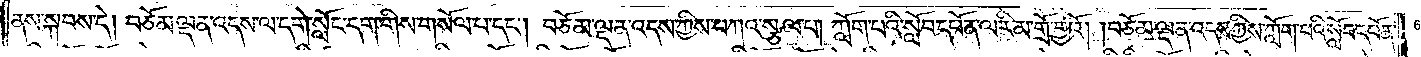ནས་སྐབས་དེ། བཅོམ་ལྡན་འདས་ལ་དགེ་སློང་དག་གིས་གསོལ་པ་དང༌། བཅོམ་ལྡན་འདས་ཀྱིས་བཀའ་སྩལ་པ། ཀློག་པའི་སློབ་དཔོན་ལ་རིམ་གྲོ་བྱའོ། །བཅོམ་ལྡན་འདས་ཀྱིས་ཀློག་པའི་སློབ་དཔོན་
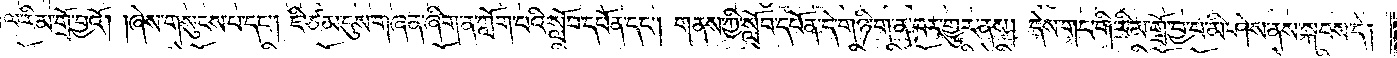ལ་རིམ་གྲོ་བྱའོ། །ཞེས་གསུངས་པ་དང༌། ཇི་ཙམ་དུས་གཞན་ཞིག་ན་ཀློག་པའི་སློབ་དཔོན་དང༌། གནས་ཀྱི་སློབ་དཔོན་དེ་གཉི་ག་ན་བར་གྱུར་ནས། དེས་གང་གི་རིམ་གྲོ་བྱ་བ་མི་ཤེས་ནས་སྐབས་དེ།
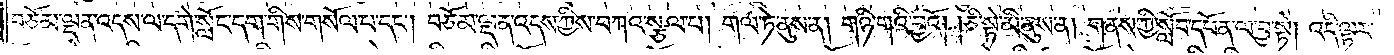བཅོམ་ལྡན་འདས་ལ་དགེ་སློང་དག་གིས་གསོལ་པ་དང༌། བཅོམ་ལྡན་འདས་ཀྱིས་བཀའ་སྩལ་པ། གལ་ཏེ་ནུས་ན། གཉི་གའི་བྱའོ། །ཅི་སྟེ་མི་ནུས་ན། གནས་ཀྱི་སློབ་དཔོན་ལ་བྱ་སྟེ། འདི་ལྟར་
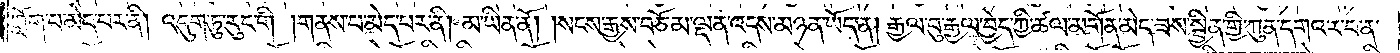ཀློག་པ་མེད་པར་ནི། འདུག་ཏུ་རུང་གི །གནས་པ་མེད་པར་ནི། མ་ཡིན་ནོ། །སངས་རྒྱས་བཅོམ་ལྡན་འདས་མཉན་ཡོད་ན། རྒྱལ་བུ་རྒྱལ་བྱེད་ཀྱི་ཚལ་མགོན་མེད་ཟས་སྦྱིན་གྱི་ཀུན་དགའ་ར་བ་ན་
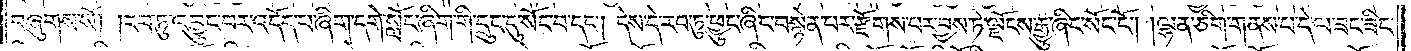བཞུགས་སོ། །རབ་ཏུ་འབྱུང་བར་འདོད་པ་ཞིག་དགེ་སློང་ཞིག་གི་དྲུང་དུ་སོང་བ་དང༌། དེས་དེ་རབ་ཏུ་ཕྱུང་ཞིང་བསྙེན་པར་རྫོགས་པར་བྱས་ཏེ་ལྗོངས་རྒྱུ་ཞིང་སོང་ངོ༌། །ལྷན་ཅིག་གནས་པ་དེ་ལ་ཟང་ཟིང་
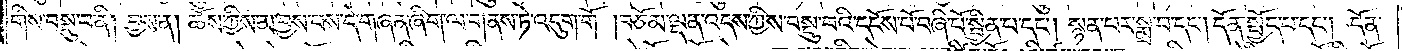གིས་བསྡུ་བ་ནི། བྱས་ན། ཆོས་ཀྱིས་མ་བྱས་པས་དེ་གཞན་ཞིག་ལ་གནས་ཏེ་འདུག་གོ །བཅོམ་ལྡན་འདས་ཀྱིས་བསྡུ་བའི་དངོས་པོ་བཞི་པོ་སྦྱིན་པ་དང༌། སྙན་པར་སྨྲ་བ་དང༌། དོན་སྤྱོད་པ་དང༌། དོན་
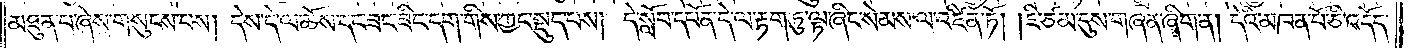མཐུན་པ་ཞེས་གསུངས་པས། དེས་དེ་ལ་ཆོས་དང་ཟང་ཟིང་དག་གིས་ཀྱང་སྡུད་པས། དེ་སློབ་དཔོན་དེ་ལ་རྟག་ཏུ་ལྟ་ཞིང་སེམས་ལ་འཛིན་ཏོ། །ཇི་ཙམ་དུས་གཞན་ཞིག་ན། དེའི་མཁན་པོ་ཅི་འདོད་
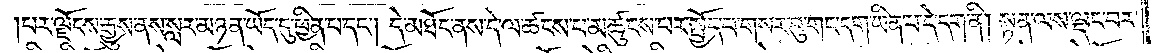པར་ལྗོངས་རྒྱུས་ནས་སླར་མཉན་ཡོད་དུ་ཕྱིན་པ་དང༌། དེ་མཐོང་ནས་དེ་ལ་ཚངས་པ་མཚུངས་པར་སྤྱོད་པ་གསར་བུ་གང་དག་ཡིན་པ་དེ་དག་ནི། སྟན་ལས་ལྡང་བར་
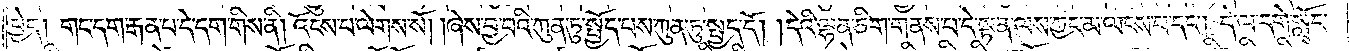བྱེད། གང་དག་རྒན་པ་དེ་དག་གིས་ནི། འོངས་པ་ལེགས་སོ། །ཞེས་བྱ་བའི་ཀུན་ཏུ་སྤྱོད་པས་ཀུན་ཏུ་སྤྱད་དོ། །དེའི་ལྷན་ཅིག་གནས་པ་དེ་སྟན་ལས་ཀྱང་མ་ལངས་པ་དང༌། དེ་ལ་དགེ་སློང་
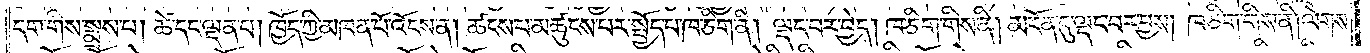དག་གིས་སྨྲས་པ། ཚེ་དང་ལྡན་པ། ཁྱོད་ཀྱི་མཁན་པོ་འོངས་ན། ཚངས་པ་མཚུངས་པར་སྤྱོད་པ་ཁ་ཅིག་ནི། ལྡང་བར་བྱེད། ཁ་ཅིག་གིས་ནི། མངོན་དུ་ལྡང་བར་བྱས། ཁ་ཅིག་གིས་ནི། ལེགས་
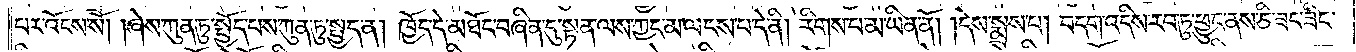པར་འོངས་སོ། །ཞེས་ཀུན་ཏུ་སྤྱོད་པས་ཀུན་ཏུ་སྤྱད་ན། ཁྱོད་དེ་མཐོང་བཞིན་དུ་སྟན་ལས་ཀྱང་མ་ལངས་པ་དེ་ནི། རིགས་པ་མ་ཡིན་ནོ། །དེས་སྨྲས་པ། བདག་འདིས་རབ་ཏུ་ཕྱུང་ནས་ཅི་ཟང་ཟིང་
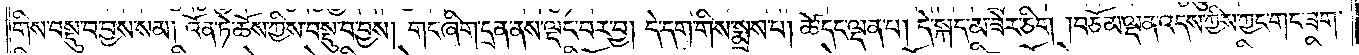གིས་བསྡུ་བ་བྱས་སམ། འོན་ཏེ་ཆོས་ཀྱིས་བསྡུ་བ་བྱས། གང་ཞིག་དྲན་ནས་ལྡང་བར་བྱ། དེ་དག་གིས་སྨྲས་པ། ཚེ་དང་ལྡན་པ། དེ་སྐད་མ་ཟེར་ཅིག །བཅོམ་ལྡན་འདས་ཀྱིས་ཀྱང་གང་ཟག་
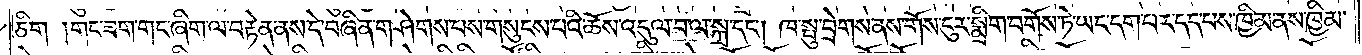ཅིག །གང་ཟག་གང་ཞིག་ལ་བརྟེན་ནས་དེ་བཞིན་གཤེགས་པས་གསུངས་པའི་ཆོས་འདུལ་བ་ལ་སྐྲ་དང༌། ཁ་སྤུ་བྲེགས་ནས་གོས་ངུར་སྨྲིག་བགོས་ཏེ་ཡང་དག་པར་དད་པས་ཁྱིམ་ནས་ཁྱིམ་
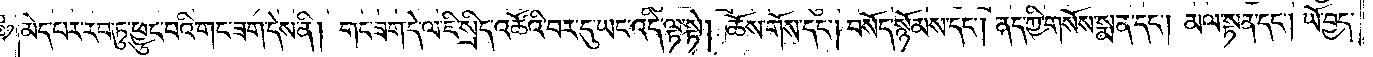མེད་པར་རབ་ཏུ་ཕྱུང་བའི་གང་ཟག་དེས་ནི། གང་ཟག་དེ་ལ་ཇི་སྲིད་འཚོའི་བར་དུ་ཡང་འདི་ལྟ་སྟེ། ཆོས་གོས་དང༌། བསོད་སྙོམས་དང༌། ནད་ཀྱི་གསོས་སྨན་དང༌། མལ་སྟན་དང༌། ཡོ་བྱད་
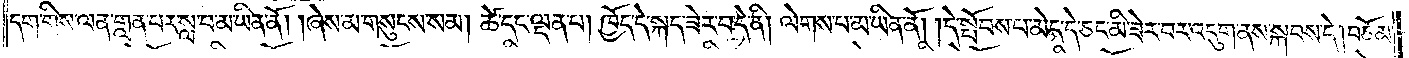དག་གིས་ལན་གླན་པར་སླ་བ་མ་ཡིན་ནོ། །ཞེས་མ་གསུངས་སམ། ཚེ་དང་ལྡན་པ། ཁྱོད་དེ་སྐད་ཟེར་བ་དེ་ནི། ལེགས་པ་མ་ཡིན་ནོ། །དེ་སྤོབས་པ་མེད་དེ་ཅང་མི་ཟེར་བར་འདུག་ནས་སྐབས་དེ། བཅོམ་
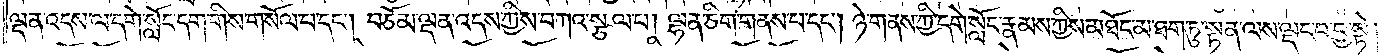ལྡན་འདས་ལ་དགེ་སློང་དག་གིས་གསོལ་པ་དང༌། བཅོམ་ལྡན་འདས་ཀྱིས་བཀའ་སྩལ་པ། ལྷན་ཅིག་གནས་པ་དང༌། ཉེ་གནས་ཀྱི་དགེ་སློང་རྣམས་ཀྱིས་མཐོང་མ་ཐག་ཏུ་སྟན་ལས་ལྡང་བ་བྱ་སྟེ།
